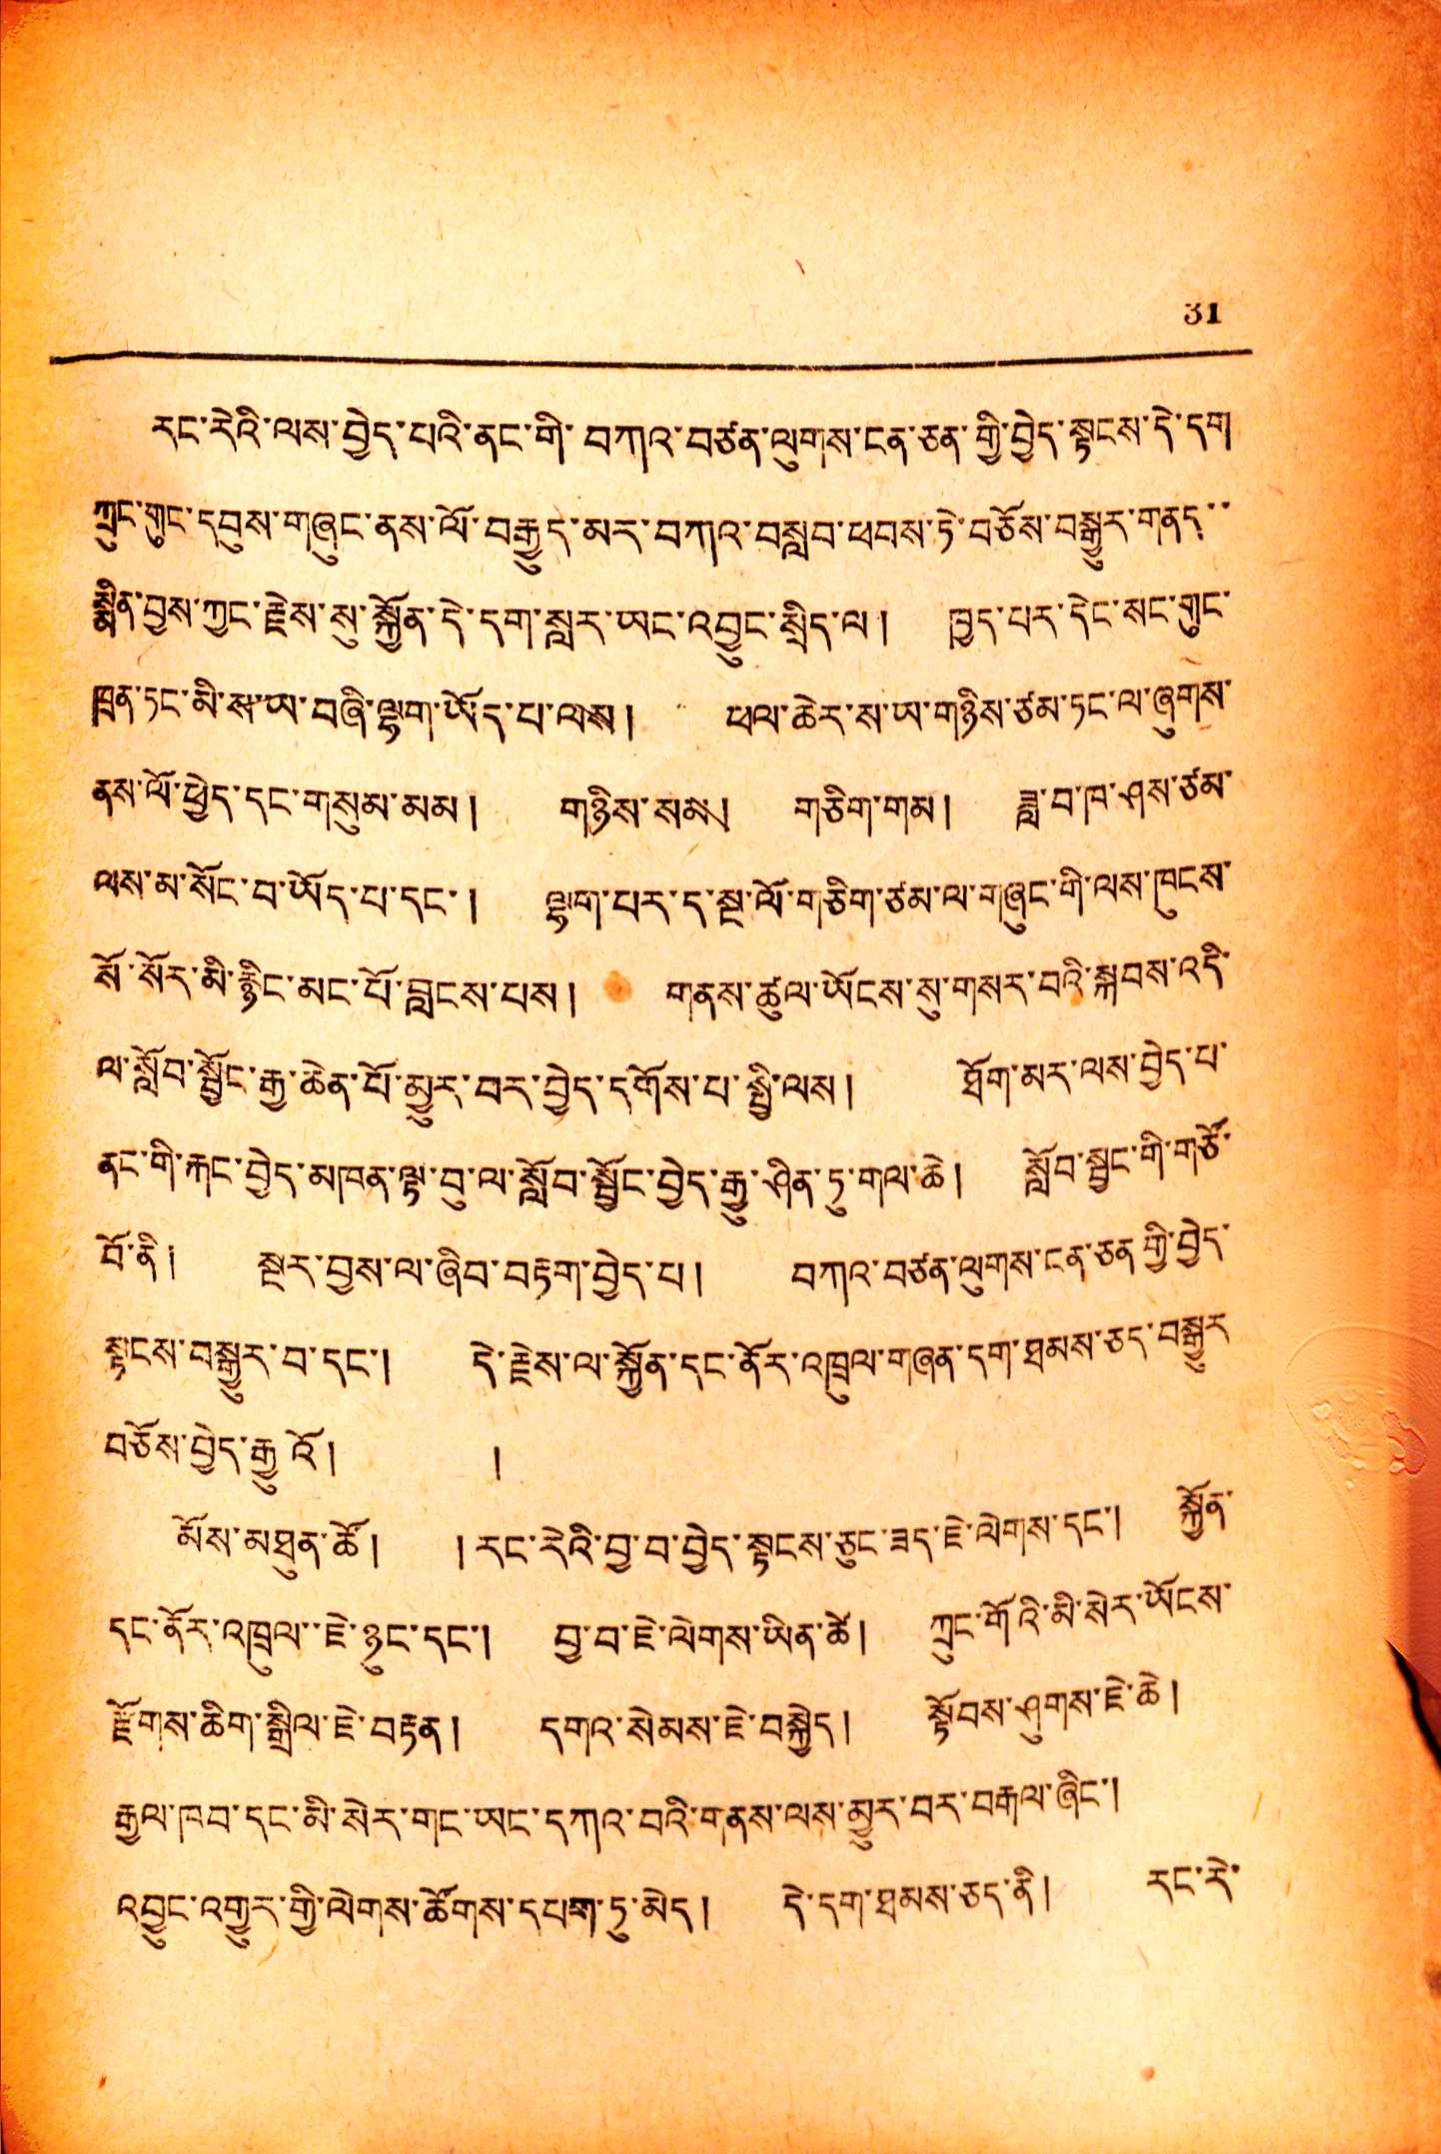31
རང་རེའི་ལས་བྱེད་པའི་ནང་གི་བཀའ་བཙན་ལུགས་ངན་ཅན་གྱི་བྱེད་སྟངས་དེ་དག
ཀྲུང་གུང་དབུས་གཞུང་ནས་ལོ་བརྒྱུད་མར་བཀའ་བསླབ་ཕབས་ཏེ་བཅོས་བསྒྱུར་གནད་་
སྨིན་བྱས་ཀྱང་རྗེས་སུ་སྐྱོན་དེ་དག་སླར་ཡང་འབྱུང་སྲིད་ལ། ཁྱད་པར་དེང་སང་གུང་
ཁྲན་ཏང་མི་ས་ཡ་བཞི་ལྷག་ཡོད་པ་ལས། ཕལ་ཆེར་ས་ཡ་གཉིས་ཙམ་ཏང་ལ་ཞུགས་
ནས་ལོ་ཕྱེད་དང་གསུམ་མམ། གཉིས་སམ། གཅིག་གམ། ཟླ་བ་ཁ་ཤས་ཙམ་
ལས་མ་སོང་བ་ཡོད་པ་དང་། ལྷག་པར་ད་སྔ་ལོ་གཅིག་ཙམ་ལ་གཞུང་གི་ལས་ཁུངས་
སོ་སོར་མི་རྙིང་མང་པོ་བླངས་པས། གནས་ཚུལ་ཡོངས་སུ་གསར་བའི་སྐབས་འདི་
ལ་སློབ་སྦྱོང་རྒྱ་ཆེན་པོ་མྱུར་བར་བྱེད་དགོས་པ་སྤྱི་ལས། ཐོག་མར་ལས་བྱེད་པ་
ནང་གི་རྐང་བྱེད་མཁན་ལྟ་བུ་ལ་སློབ་སྦྱོང་བྱེད་རྒྱུ་ཤིན་ཏུ་གལ་ཆེ། སློབ་སྦྱང་གི་གཙོ་
བོ་ནི༏ སྔར་བྱས་ལ་ཞིབ་བརྟག་བྱེད་པ། བཀའ་བཙན་ལུགས་ངན་ཅན་གྱི་བྱེད་
སྟངས་བསྒྱུར་བ་དང་། དེ་རྗེས་ལ་སྐྱོན་དང་ནོར་འཁྲུལ་གཞན་དག་ཐམས་ཅད་བསྒྱུར་
བཅོས་བྱེད་རྒྱུའོ། །
མོས་མཐུན་ཚོ། །རང་རེའི་བྱ་བ་བྱེད་སྟངས་ཅུང་ཟད་ཇེ་ལེགས་དང་། སྐྱོན་
དང་ནོར་འཁྲུལ་་ཇེ་ཉུང་དང་། བྱ་བ་ཇེ་ལེགས་ཡིན་ཚེ། ཀྲུང་གོའི་མི་སེར་ཡོངས་
རྫོགས་ཆིག་སྒྲིལ་ཇེ་བརྟན། དགའ་སེམས་ཇེ་བསྐྱེད། སྟོབས་ཤུགས་ཇེ་ཆེ།
རྒྱལ་ཁབ་དང་མི་སེར་གང་ཡང་དཀའ་བའི་གནས་ལས་མྱུར་བར་བརྒལ་ཞིང་།
འབྱུང་འགྱུར་གྱི་ལེགས་ཚོགས་དཔག་ཏུ་མེད། དེ་དག་ཐམས་ཤད་ནི། རང་རེ་
